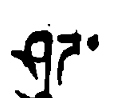ཤུཌ་
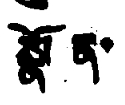སྣོན་
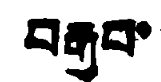བརྒྱབ་
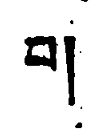བ།
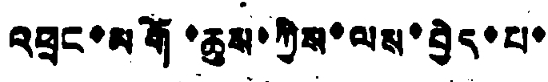འཕྲང་མགོ་ཆུས་ཀྱིས་ལས་བྱེད་པ་
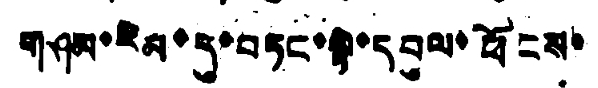གཤམ་རིམ་དུ་བཏང་སྟེ་དབུལ་ཕོངས་
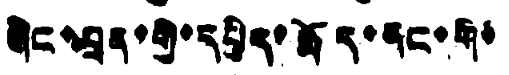ཞིང་བྲན་གྱི་དཔྱིད་རྨོད་ནང་གི་
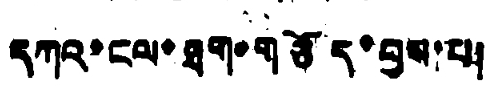དཀའ་ངལ་ཐག་གཅོད་བྱས་པ།
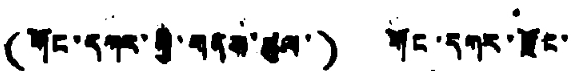(གོང་དཀར་གྱི་གནས་ཚུལ་) གོང་དཀར་རྫོང་
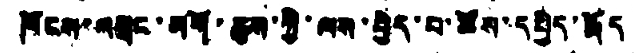ཁོངས་འབྲང་མགོ་ཆུས་ཀྱི་ལས་བྱེད་པ་ཚེས་དཔྱིད་རྨོད
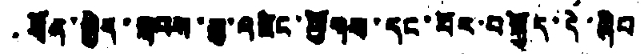ཐོན་སྐྱེད་སྐབས་སུ་འཛིང་ཕྱོགས་དང་པོར་བསྐྱོད་དེ་ཞིབ
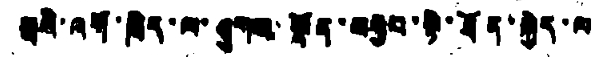ཕྲའི་འགོ་ཁྲིད་ལ་ཤུགས་སྣོན་བརྒྱབ་སྟེ་ཐོན་སྐྱེད་ལ
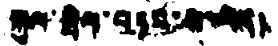སྐྱལ་སྤེལ་བཏང་བ་རེད།
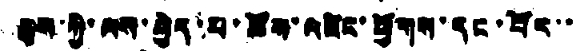ཆུས་ཀྱི་ལས་བྱེད་པ་ཆོས་འཛིང་ཕྱོགས་དང་པོར་་
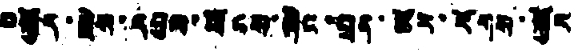བསྐྱོད་རྗེས་དབུལ་ཕོངས་ཞིང་བྲན་ཚོར་རོགས་སྐྱོང
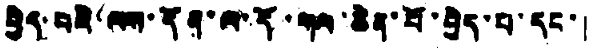བྱེད་པའི་ལས་དོན་ལ་དོ་གལ་ཆེན་པོ་བྱེད་པ་དང་།
